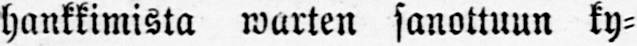hankkimista warten sanottuun ky-
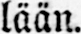lään.
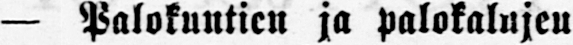— Palokuntien ja palokalujeu
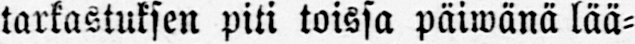tarkastuksen piti toissa päiwänä lää-
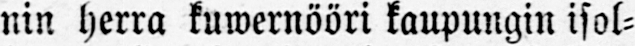nin herra kuwernööri kaupungin isol-
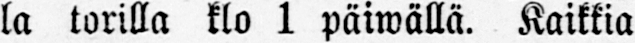la torilla klo 1 päiwällä. Kaikkia
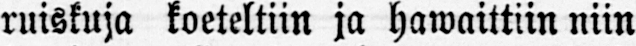ruiskuja koeteltiin ja hawaittiin niin
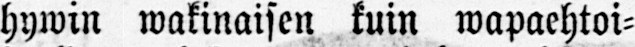hywin wakinaisen kuin wapaehtoi-
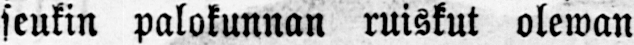seukin palokunnan ruiskut olewan
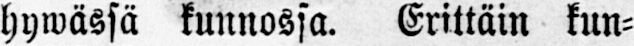hywässä kunnossa. Erittäin kun-
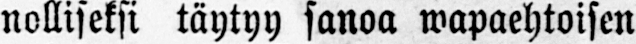nolliseksi täytyy sanoa wapaehtoisen
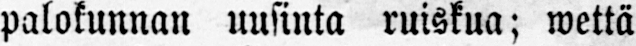palokunnan uusinta ruiskua; wettä
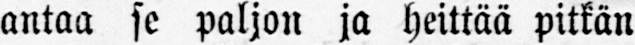antaa se paljon ja heittää pitkän
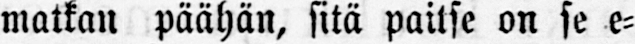matkan päähän, sitä paitse on se e-
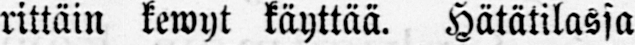rittäin kewyt käyttää. Hätätilassa
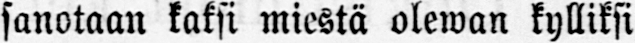sanotaan kaksi miestä olewan kylliksi
